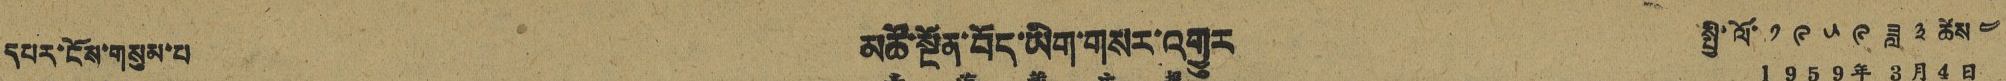དཔར་ངོས་གསུམ་པ མཚོ་སྔོན་བོད་ཡིག་གསར་འགྱུར སྤྱི་ལོ་ ༡ ༩ ༥ ༩ ཟླ ༣ ཚེས ༤
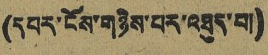(དཔར་ངོས་གཉིས་པར་འཐུད་བ།)
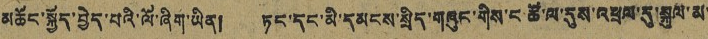མཆོང་སྐྱོད་བྱེད་པའི་ལོ་ཞིག་ཡིན། ཏང་དང་མི་དམངས་སྲིད་གཞུང་གིས་ང་ཚོ་ལ་དུས་འཕྲལ་དུ་སྐུལ་མ་
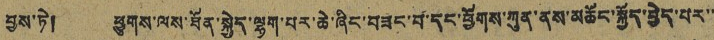བྱས་ཏེ། ཕྱུགས་ལས་ཐོན་སྐྱེད་ལྷག་པར་ཆེ་ཞིང་བཟང་བ་དང་ཕྱོགས་ཀུན་ནས་མཆོང་སྐྱོད་བྱེད་པར་་
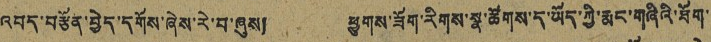འབད་བརྩོན་བྱེད་དགོས་ཞེས་རེ་བ་ཞུས། ཕྱུགས་ཟོག་རིགས་སྣ་ཚོགས་ད་ཡོད་ཀྱི་རྨང་གཞིའི་ཐོག་
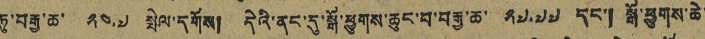ཏུ་བརྒྱ་ཆ་ ༢༠.༧ སྤེལ་དགོས། དེའི་ནང་དུ་སྒོ་ཕྱུགས་ཆུང་བ་བརྒྱ་ཆ་ ༢༧.༧༧ དང་། སྒོ་ཕྱུགས་ཆེ་
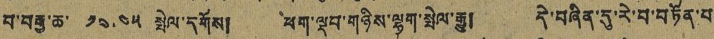བ་བརྒྱ་ཆ་ ༡༠.༤༥ སྤེལ་དགོས། ཕག་ལྡབ་གཉིས་ལྷག་སྤེལ་རྒྱུ། དེ་བཞིན་དུ་རེ་བ་བཏོན་བ
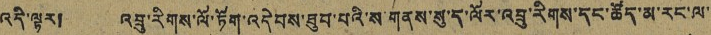འདི་ལྟར། འབྲུ་རིགས་ལོ་ཏོག་འདེབས་ཐུབ་པའི་ས་གནས་སུ་ད་ལོར་འབྲུ་རིགས་དང་ཚོད་མ་རང་ལ་
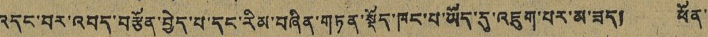འདང་བར་འབད་བརྩོན་བྱེད་པ་དང་རིམ་བཞིན་གཏན་སྡོད་ཁང་པ་ཡོད་དུ་འཇུག་པར་མ་ཟད། ཕོན་
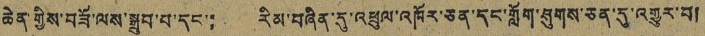ཆེན་གྱིས་བཟོ་ལས་སྒྲུབ་བ་དང་། རིམ་བཞིན་དུ་འཕྲུལ་འཁོར་ཅན་དང་གློག་ཤུགས་ཅན་དུ་འགྱུར་བ།
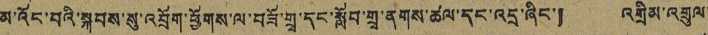མ་འོང་བའི་སྐབས་སུ་འབྲོག་ཕྱོགས་ལ་བཟོ་གྲྭ་དང་སློབ་གྲྭ་ནགས་ཚལ་དང་འདྲ་ཞིང་། འགྲིམ་འགྲུལ་
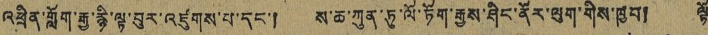འཕྲིན་གློག་རྒྱ་རྙི་ལྟ་བུར་འཛུགས་པ་དང་། ས་ཆ་ཀུན་ཏུ་ལོ་ཏོག་རྒྱས་ཤིང་ནོར་ལུག་གིས་ཁྱབ། ལྟོ་
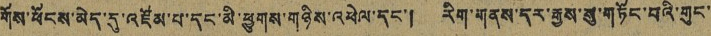གོས་ཕོངས་མེད་དུ་འཛོམ་པ་དང་མི་ཕྱུགས་གཉིས་འཕེལ་དང་། རིག་གནས་དར་རྒྱས་སུ་གཏོང་བའི་གུང་
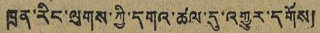ཁྲན་རིང་ལུགས་ཀྱི་དགའ་ཚལ་དུ་འགྱུར་དགོས།
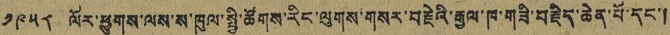༡༩༥༨ ལོར་ཕྱུགས་ལས་ས་ཁུལ་སྤྱི་ཚོགས་རིང་ལུགས་གསར་བརྗེའི་རྒྱལ་ཁ་གཟི་བརྗིད་ཆེན་པོ་དང་།
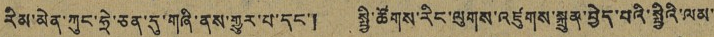རིམ་མེན་ཀུང་ཧྲེ་ཅན་དུ་གཞི་ནས་གྱུར་པ་དང་། སྤྱི་ཚོགས་རིང་ལུགས་འཛུགས་སྐྲུན་བྱེད་པའི་སྤྱིའི་ལམ་
